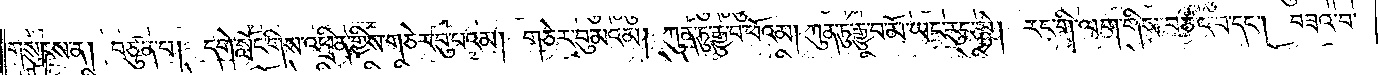གསུངས་ན། བཙུན་པ། དགེ་སློང་གིས་འཕྲིན་གྱིས་གཅེར་བུ་པའམ། གཅེར་བུ་མའམ། ཀུན་ཏུ་རྒྱུ་བ་ཕོའམ། ཀུན་ཏུ་རྒྱུ་བ་མོ་ཡང་རུང་སྟེ། རང་གི་ལག་གིས་བཅའ་བ་དང༌། བཟའ་བ་
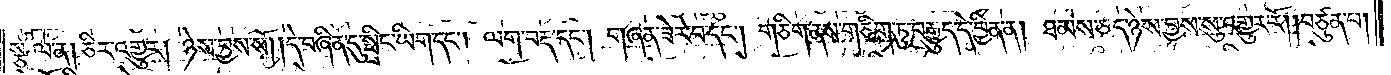སྩལ་ན། ཅིར་འགྱུར། ཉེས་བྱས་སོ། །དེ་བཞིན་དུ་སྤྲིང་ཡིག་དང༌། ལག་བརྡ་དང༌། གཞན་ཟེར་བ་དང༌། གཅིག་ནས་གཅིག་ཏུ་བརྒྱུད་དེ་བྱིན་ན། ཐམས་ཅད་ཉེས་བྱས་སུ་འགྱུར་རོ། །བཙུན་པ།
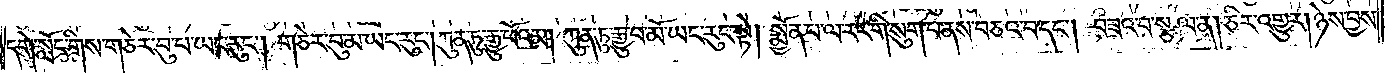དགེ་སློང་གིས་གཅེར་བུ་པ་ཡང་རུང༌། གཅེར་བུ་མ་ཡང་རུང༌། ཀུན་ཏུ་རྒྱུ་ཕོའམ། ཀུན་ཏུ་རྒྱུ་བ་མོ་ཡང་རུང་སྟེ། སྨྱོན་པ་ལ་རང་གི་སུག་པ་ནས་བཅའ་བ་དང༌། བཟའ་བ་སྩལ་ན། ཅིར་འགྱུར། ཉེས་བྱས་
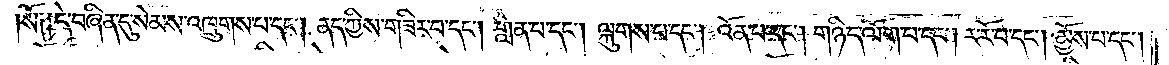།སོ༑ ༑དེ་བཞིན་དུ་སེམས་འཁྲུགས་པ་དང༌། ནད་ཀྱིས་གཟིར་བ་དང༌། གླེན་པ་དང༌། ལྐུགས་པ་དང༌། འོན་པ་དང༌། གཉིད་ལོག་པ་དང༌། ར་རོ་བ་དང༌། མྱོས་པ་དང༌།
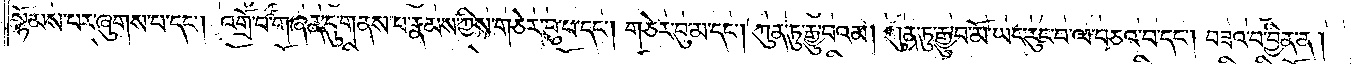སྙོམས་པར་ཞུགས་པ་དང༌། འགྲོ་བ་གཞན་དུ་གནས་པ་རྣམས་ཀྱིས་གཅེར་བུ་པ་དང༌། གཅེར་བུ་མ་དང༌། ཀུན་ཏུ་རྒྱུ་བའམ། ཀུན་ཏུ་རྒྱུ་བ་མོ་ཡང་རུང་བ་ལ་བཅའ་བ་དང༌། བཟའ་བ་བྱིན་ན།
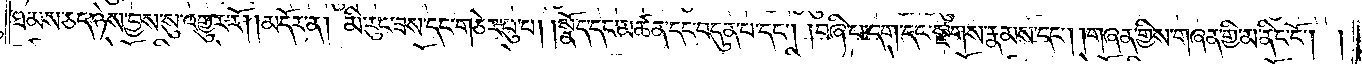ཐམས་ཅད་ཉེས་བྱས་སུ་འགྱུར་རོ། །མདོར་ན། མི་རུང་ཟས་དང་གཅེར་བུ་པ། །སྣོད་དང་མཚན་དང་བདུན་པ་དང༌། །བཞི་པ་དག་དང་སྔགས་རྣམས་དང༌། །གཞན་གྱིས་གཞན་གྱི་མ་ནིང་ངོ༌། །
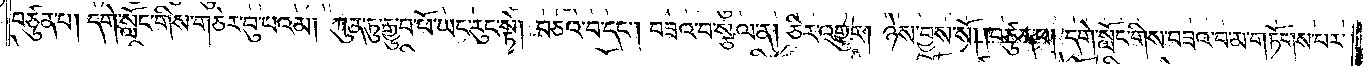བཙུན་པ། དགེ་སློང་གིས་གཅེར་བུ་པའམ། ཀུན་ཏུ་རྒྱུ་བ་ཕོ་ཡང་རུང་སྟེ། བཅའ་བ་དང༌། བཟའ་བ་སྩལ་ན། ཅིར་འགྱུར། ཉེས་བྱས་སོ། །བཙུན་པ། དགེ་སློང་གིས་བཟའ་བ་མ་གཏོགས་པར་
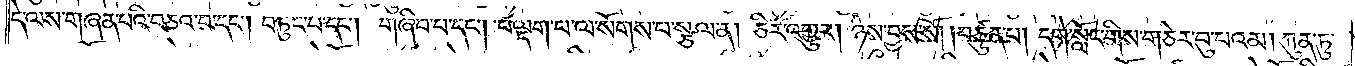དེ་ལས་གཞན་པའི་བཅའ་བ་དང༌། བཏུང་བ་དང༌། གཞིབ་པ་དང༌། བལྡག་པ་ལ་སོགས་པ་སྩལ་ན། ཅིར་འགྱུར། ཉེས་བྱས་སོ། །བཙུན་པ། དགེ་སློང་གིས་གཅེར་བུ་པའམ། ཀུན་ཏུ་
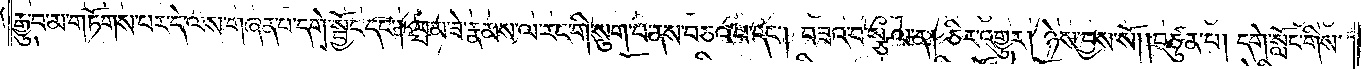རྒྱུ་བ་མ་གཏོགས་པར་དེ་ལས་གཞན་པ་དགེ་སྦྱོང་དང༌། བྲམ་ཟེ་རྣམས་ལ་རང་གི་སུག་པ་ནས་བཅའ་བ་དང༌། བཟའ་བ་སྩལ་ན། ཅིར་འགྱུར། ཉེས་བྱས་སོ། །བཙུན་པ། དགེ་སློང་གིས་
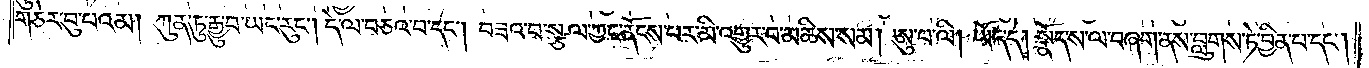གཅེར་བུ་པའམ། ཀུན་ཏུ་རྒྱུ་བ་ཡང་རུང༌། དེ་ལ་བཅའ་བ་དང༌། བཟའ་བ་སྩལ་ཀྱང་ནོངས་པར་མི་འགྱུར་བ་མཆིས་སམ། ཨུ་པ་ལི། ཡོད་དེ། སྣོད་ས་ལ་བཞག་ནས་བླུགས་ཏེ་བྱིན་པ་དང༌།
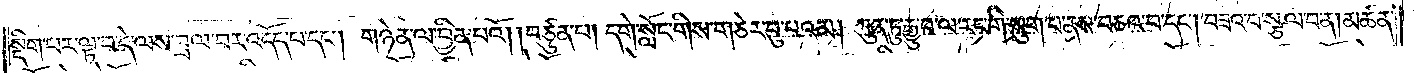སྡིག་པར་ལྟ་བ་དེ་ལས་བྲལ་བར་འདོད་པ་དང༌། གཉེན་ལ་བྱིན་པའོ། །བཙུན་པ། དགེ་སློང་གིས་གཅེར་བུ་པའམ། ཀུན་ཏུ་རྒྱུ་བ་ལ་རང་གི་སུག་པ་ནས་བཅའ་བ་དང༌། བཟའ་བ་སྩལ་བ་ན། མཚན་
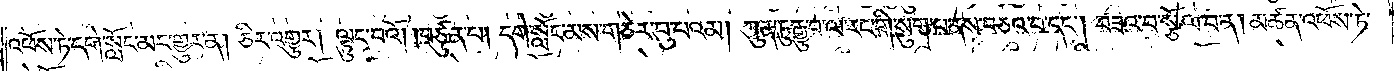འཕོས་ཏེ་དགེ་སློང་མར་གྱུར་ན། ཅིར་འགྱུར། ལྟུང་བའོ། །བཙུན་པ། དགེ་སློང་མས་གཅེར་བུ་པའམ། ཀུན་ཏུ་རྒྱུ་བ་ལ་རང་གི་སུག་པ་ནས་བཅའ་བ་དང༌། བཟའ་བ་སྩོལ་བ་ན། མཚན་འཕོས་ཏེ་
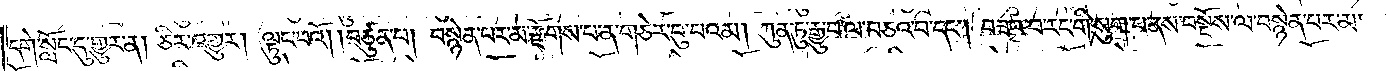དགེ་སློང་དུ་གྱུར་ན། ཅིར་འགྱུར། ལྟུང་བའོ། །བཙུན་པ། བསྙེན་པར་མ་རྫོགས་པ་ན་གཅེར་བུ་པའམ། ཀུན་ཏུ་རྒྱུ་བ་ལ་བཅའ་བ་དང༌། བཟའ་བ་རང་གི་སུག་པ་ནས་བསྔོས་ལ་བསྙེན་པར་མ་
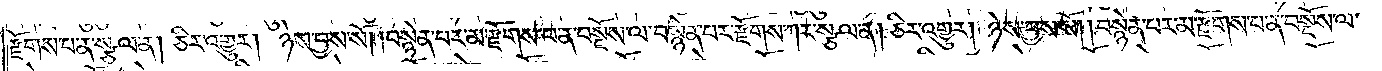རྫོགས་པ་ན་སྩལ་ན། ཅིར་འགྱུར། ཉེས་བྱས་སོ། །བསྙེན་པར་མ་རྫོགས་པ་ན་བསྔོས་ལ་བསྙེན་པར་རྫོགས་ཀར་སྩལ་ན། ཅིར་འགྱུར། ཉེས་བྱས་སོ། །བསྙེན་པར་མ་རྫོགས་པ་ན་བསྔོས་ལ་
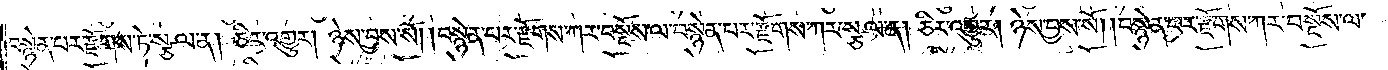བསྙེན་པར་རྫོགས་ཏེ་སྩལ་ན། ཅིར་འགྱུར། ཉེས་བྱས་སོ། །བསྙེན་པར་རྫོགས་ཀར་བསྔོས་ལ་བསྙེན་པར་རྫོགས་ཀར་སྩལ་ན། ཅིར་འགྱུར། ཉེས་བྱས་སོ། །བསྙེན་པར་རྫོགས་ཀར་བསྔོས་ལ་
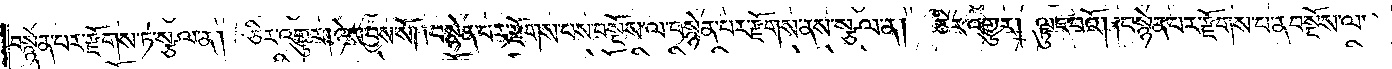བསྙེན་པར་རྫོགས་ཏེ་སྩལ་ན། ཅིར་འགྱུར། ཉེས་བྱས་སོ། །བསྙེན་པར་རྫོགས་པས་བསྔོས་ལ་བསྙེན་པར་རྫོགས་ནས་སྩལ་ན།  ཅིར་འགྱུར། ལྟུང་བའོ། །བསྙེན་པར་རྫོགས་པ་ན་བསྔོས་ལ་
